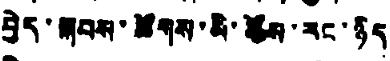བྱེད་སྐབས་ཚོགས་མི་ཚོས་རང་ཉིད
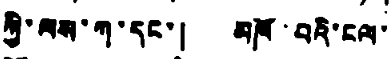ཀྱི་ལས་ཀ་དང་། མཁོ་བའི་ངལ་
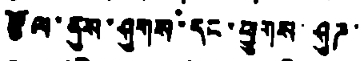རྩོལ་ནུས་ཤུགས་དང་ཕྱུགས་ཤུཌ་
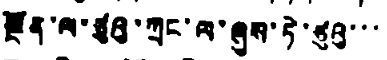སྔོན་ལ་ཙུའུ་ཀྲང་ལ་ཞུས་ཏེ་ཙུའུ་་་
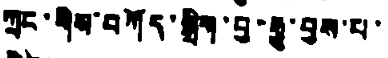ཀྲང་གིས་བཀོད་སྒྲིག་བྱ་རྒྱུ་བྱས་པ་
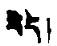རེད།
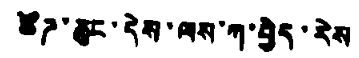ཚོཌ་ཆུང་དེས་ལས་ཀ་བྲིད་རེས
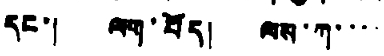དང་། ལག་པོད། ལས་ཀ་་་་
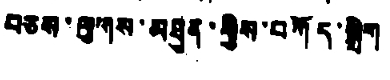བཅས་ལུགས་མཐུན་གྱིས་བཀོད་སྒྲིག
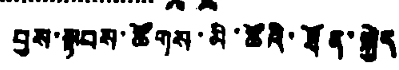བྱས་སྟབས་ཚོགས་མི་ཚོའི་ཐོན་སྐྱེད
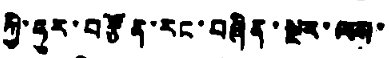ཀྱི་ཧུར་བརྩོན་རང་བཞིན་སྔར་ལས་
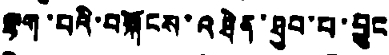ལྷག་པའི་བསྐོངས་འཐེན་ཐུབ་པ་བྱུང
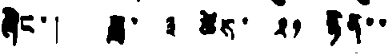ཞིང་། ཟླ་ ༣ ཚེས་ ༢༡ ཉིན་་
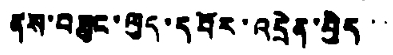ནས་བཟུང་ལུད་དབོར་འདྲེན་བྱེད་་
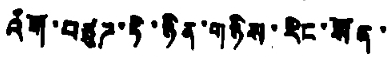འགོ་བཙུཌ་ཏེ་ཉིན་གཉིས་རིང་སོན་
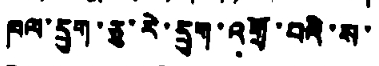ཁལ་དྲུག་ཅུ་རེ་དྲུག་འགྲོ་བའི་ས་་
